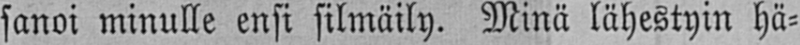sanoi minulle ensi silmäily. Minä lähestyin hä-
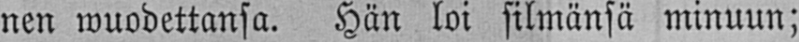nen wuodettansa. Hän loi silmänsä minuun;
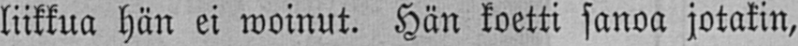liikkua hän ei woinut. Hän koetti sanoa jotakin,
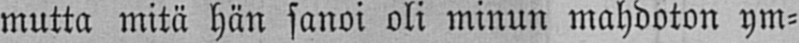mutta mitä hän sanoi oli minun mahdoton ym-
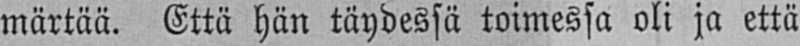märtää. Että hän täydessä toimessa oli ja että
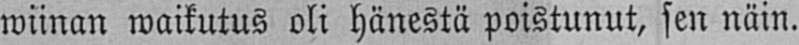wiinan waikutus oli hänestä poistunut, sen näin.
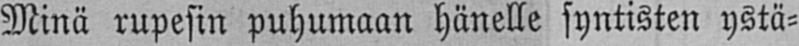Minä rupesin puhumaan hänelle syntisten ystä-
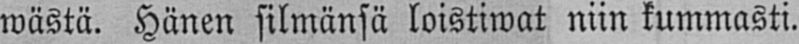wästä. Hänen silmänsä loistiwat niin kummasti.
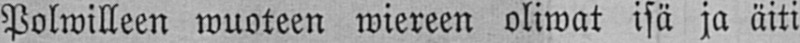Polwilleen wuoteen wiereen oliwat isä ja äiti
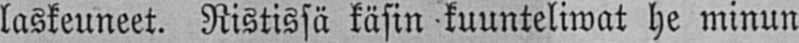laskeuneet. Ristissä käsin kuunteliwat he minun
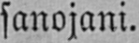sanojani.
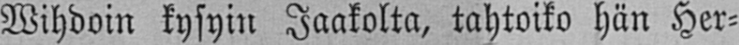Wihdoin kysyin Jaakolta, tahtoiko hän Her-
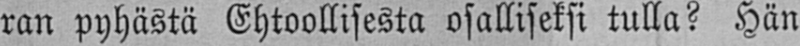ran pyhästä Ehtoollisesta osalliseksi tulla? Hän
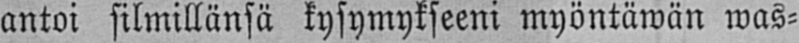antoi silmillänsä kysymykseeni myöntäwän was-
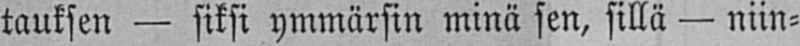tauksen — siksi ymmärsin minä sen, sillä — niin-
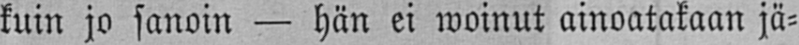kuin jo sanoin — hän ei woinut ainoatakaan jä-
